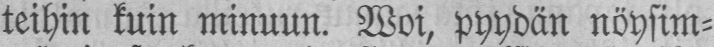teihin kuin minuun. Woi, pyydän nöysim-
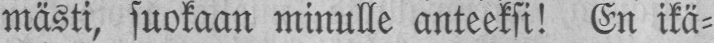mästi, suokaan minulle anteeksi! En ikä-
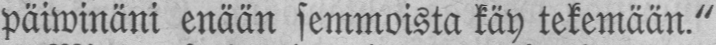päiwinäni enään semmoista käy tekemään."
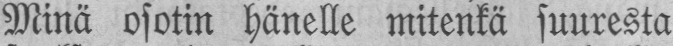Minä osotin hänelle mitenkä suuresta
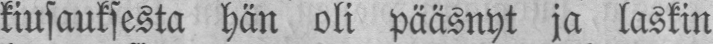kiusauksesta hän oli pääsnyt ja laskin
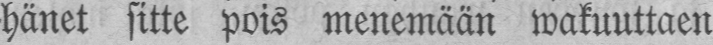hänet sitte pois menemään wakuuttaen
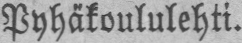Pyhäkoululehti.
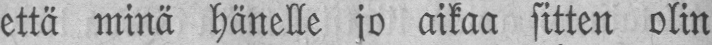että minä hänelle jo aikaa sitten olin
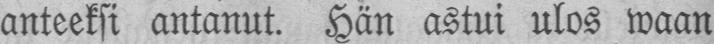anteeksi antanut. Hän astui ulos waan
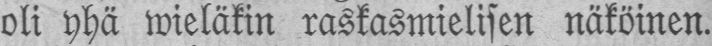oli yhä wieläkin raskasmielisen näköinen.
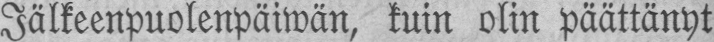Jälkeenpuolenpäiwän, kuin olin päättänyt
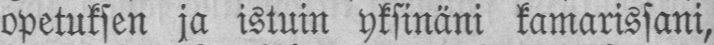opetuksen ja istuin yksinäni kamarissani,
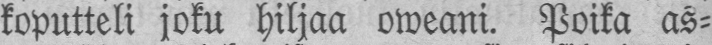koputteli joku hiljaa oweani. Poika as-
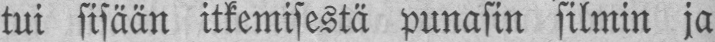tui sisään itkemisestä punasin silmin ja
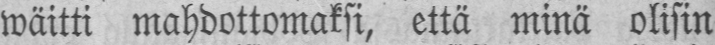wäitti mahdottomaksi, että minä olisin
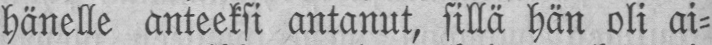hänelle anteeksi antanut, sillä hän oli ai-
